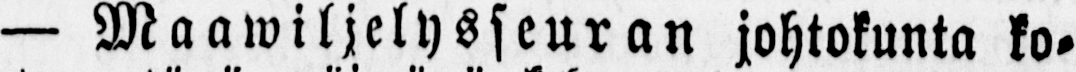— Maawiljelysseuran johtokunta ko-
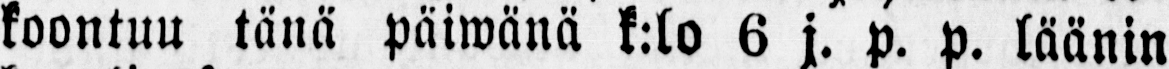koontuu tänä päiwänä k:lo 6 j. p. p. läänin
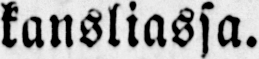kansliassa.
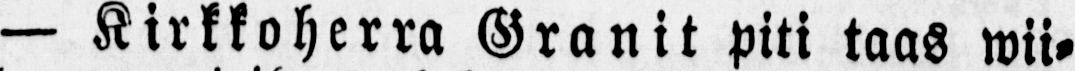— Kirkkoherra Granit piti taas wii-
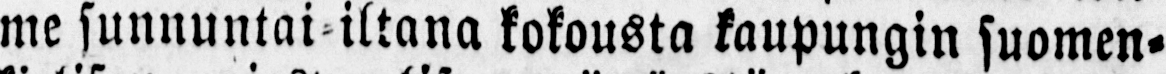me sunnuntai iltana kokousta kaupungin suomen-
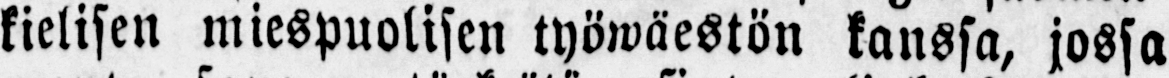kielisen miespuolisen työ-väestön kanssa, jossa
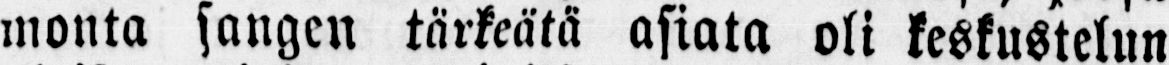monta sangen tärkeätä asiata oli keskustelun
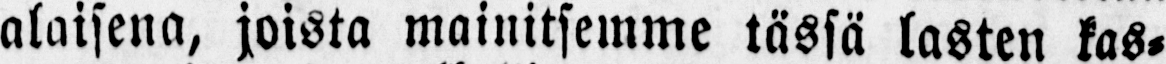alaisena, joista mainitsemme tässä lasten kas-
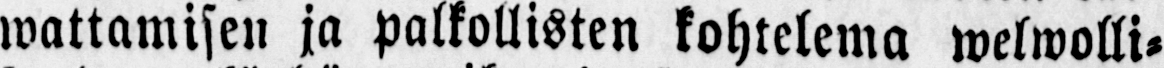wattamisen ja palkollisten kohtelema welwolli-
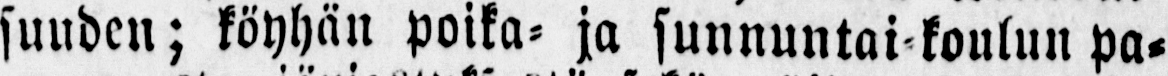suuden; köyhän poika- ja sunnuntaikoulun pa-
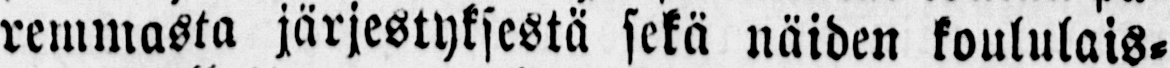remmasta järjestyksestä sekä näiden koululais-
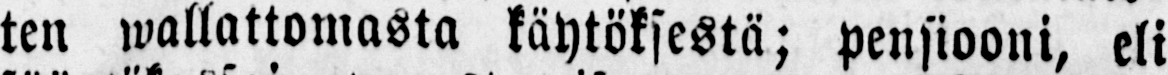ten wallattomasta käytöksestä; pensiooni, eli
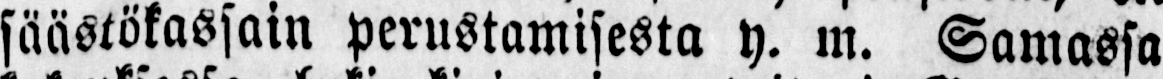säästökaösain perustamisesta y. m. Samassa
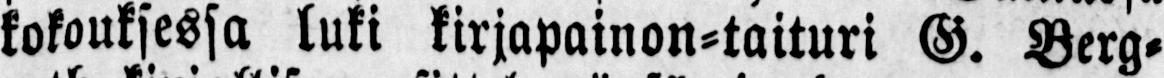kokouksessa luki kirjapainon-taituri G. Berg-
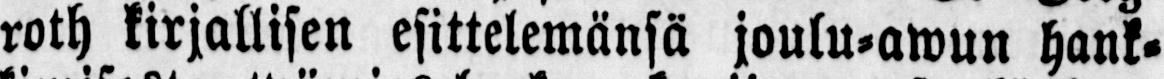roth kirjallisen esittelemänsä joulu-awun hank-
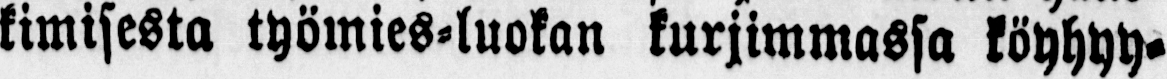kimisesta työmies-luokan kurjimmassa köyhyy-
